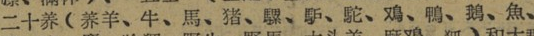二十养（养羊、牛、馬、猪、騾、馿、駝、鳮、鴨、鵝、魚、
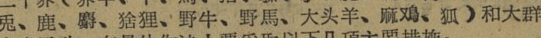兎、鹿、麝、猞狸、野牛、野馬、大头羊、麻鳮、狐）和大群
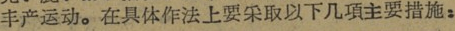丰产运动。在具体作法上要采取以下几項主要措施：
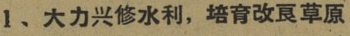1、大力兴修水利，培育改良草原
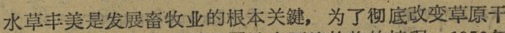水草丰美是发展畜牧业的根本关键，为了彻底改变草原干
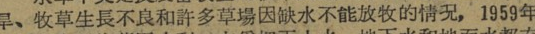旱、牧草生長不良和许多草場因缺水不能放牧的情况，1959年
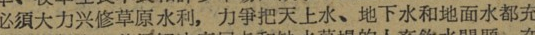必須大力兴修草原水利，力爭把天上水、地下水和地面水都充
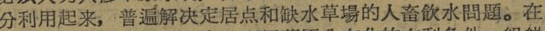分利用起来，普遍解决定居点和缺水草場的人畜饮水問題。在
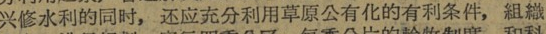兴修水利的同时，还应充分利用草原公有化的有利条件，組織
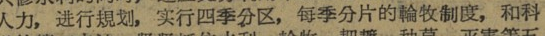人力，进行規划，实行四季分区，每季分片的輪牧制度，和科
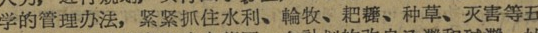学的管理办法，紧紧抓住水利、輪牧、耙耱、种草、灭害等五
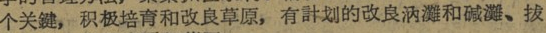个关键，积极培育和改良草原，有計划的改良汭灘和碱灘、拔
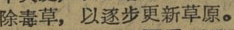除毒草，以逐步更新草原。
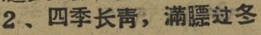2、四季常靑，滿膘过冬
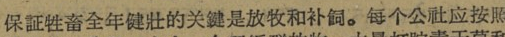保証畜生全年健壯的关鍵是放牧和补飼。每个公社应按照
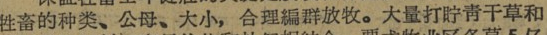牲畜的种类、公母、大小，合理編群放牧。大量打貯靑干草和
